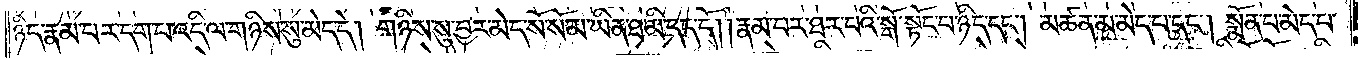ཉིད་རྣམ་པར་དག་པ་འདི་ལ་གཉིས་སུ་མེད་དེ། གཉིས་སུ་བྱར་མེད་སོ་སོ་མ་ཡིན་ཐ་མི་དད་དོ། །རྣམ་པར་ཐར་པའི་སྒོ་སྟོང་པ་ཉིད་དང༌། མཚན་མ་མེད་པ་དང༌། སྨོན་པ་མེད་པ་
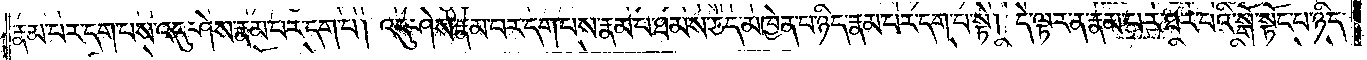རྣམ་པར་དག་པས་འདུ་ཤེས་རྣམ་པར་དག་པ། འདུ་ཤེས་རྣམ་པར་དག་པས་རྣམ་པ་ཐམས་ཅད་མཁྱེན་པ་ཉིད་རྣམ་པར་དག་པ་སྟེ། དེ་ལྟར་ན་རྣམ་པར་ཐར་པའི་སྒོ་སྟོང་པ་ཉིད་
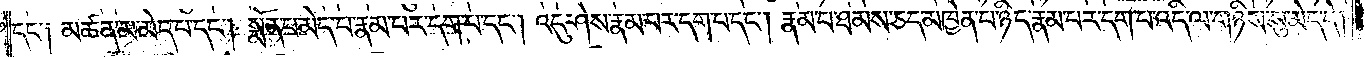དང་༑ མཚན་མ་མེད་པ་དང༌། སྨོན་པ་མེད་པ་རྣམ་པར་དག་པ་དང༌། འདུ་ཤེས་རྣམ་པར་དག་པ་དང༌། རྣམ་པ་ཐམས་ཅད་མཁྱེན་པ་ཉིད་རྣམ་པར་དག་པ་འདི་ལ་གཉིས་སུ་མེད་དེ།
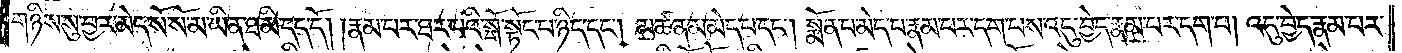གཉིས་སུ་བྱར་མེད་སོ་སོ་མ་ཡིན་ཐ་མི་དད་དོ། །རྣམ་པར་ཐར་པའི་སྒོ་སྟོང་པ་ཉིད་དང༌། མཚན་མ་མེད་པ་དང༌། སྨོན་པ་མེད་པ་རྣམ་པར་དག་པས་འདུ་བྱེད་རྣམ་པར་དག་པ། འདུ་བྱེད་རྣམ་པར་
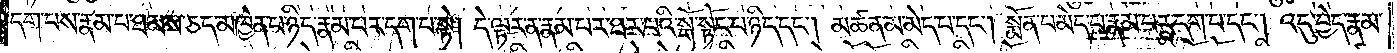དག་པས་རྣམ་པ་ཐམས་ཅད་མཁྱེན་པ་ཉིད་རྣམ་པར་དག་པ་སྟེ། དེ་ལྟར་ན་རྣམ་པར་ཐར་པའི་སྒོ་སྟོང་པ་ཉིད་དང༌། མཚན་མ་མེད་པ་དང༌། སྨོན་པ་མེད་པ་རྣམ་པར་དག་པ་དང༌། འདུ་བྱེད་རྣམ་
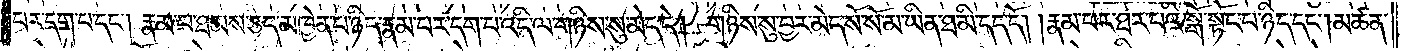པར་དག་པ་དང༌། རྣམ་པ་ཐམས་ཅད་མཁྱེན་པ་ཉིད་རྣམ་པར་དག་པ་འདི་ལ་གཉིས་སུ་མེད་དེ། གཉིས་སུ་བྱར་མེད་སོ་སོ་མ་ཡིན་ཐ་མི་དད་དོ། །རྣམ་པར་ཐར་པའི་སྒོ་སྟོང་པ་ཉིད་དང༌། མཚན་
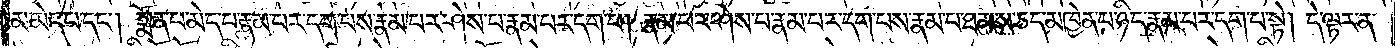མ་མེད་པ་དང༌། སྨོན་པ་མེད་པ་རྣམ་པར་དག་པས་རྣམ་པར་ཤེས་པ་རྣམ་པར་དག་པ། རྣམ་པར་ཤེས་པ་རྣམ་པར་དག་པས་རྣམ་པ་ཐམས་ཅད་མཁྱེན་པ་ཉིད་རྣམ་པར་དག་པ་སྟེ། དེ་ལྟར་ན་
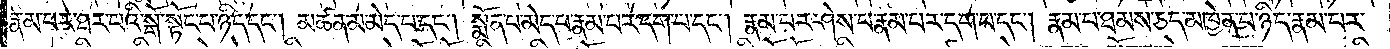རྣམ་པར་ཐར་པའི་སྒོ་སྟོང་པ་ཉིད་དང༌། མཚན་མ་མེད་པ་དང༌། སྨོན་པ་མེད་པ་རྣམ་པར་དག་པ་དང༌། རྣམ་པར་ཤེས་པ་རྣམ་པར་དག་པ་དང༌། རྣམ་པ་ཐམས་ཅད་མཁྱེན་པ་ཉིད་རྣམ་པར་
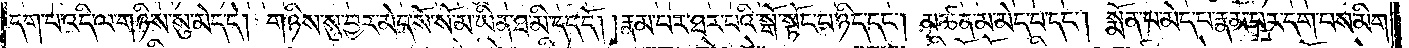དག་པ་འདི་ལ་གཉིས་སུ་མེད་དེ། གཉིས་སུ་བྱར་མེད་སོ་སོ་མ་ཡིན་ཐ་མི་དད་དོ། །རྣམ་པར་ཐར་པའི་སྒོ་སྟོང་པ་ཉིད་དང༌། མཚན་མ་མེད་པ་དང༌། སྨོན་པ་མེད་པ་རྣམ་པར་དག་པས་མིག་
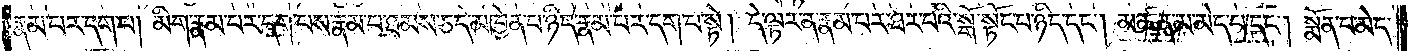རྣམ་པར་དག་པ། མིག་རྣམ་པར་དག་པས་རྣམ་པ་ཐམས་ཅད་མཁྱེན་པ་ཉིད་རྣམ་པར་དག་པ་སྟེ། དེ་ལྟར་ན་རྣམ་པར་ཐར་པའི་སྒོ་སྟོང་པ་ཉིད་དང༌། མཚན་མ་མེད་པ་དང༌། སྨོན་པ་མེད་
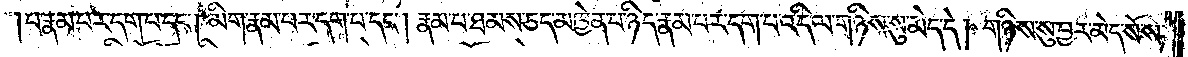པ་རྣམ་པར་དག་པ་དང༌། མིག་རྣམ་པར་དག་པ་དང༌། རྣམ་པ་ཐམས་ཅད་མཁྱེན་པ་ཉིད་རྣམ་པར་དག་པ་འདི་ལ་གཉིས་སུ་མེད་དེ། གཉིས་སུ་བྱར་མེད་སོ་སོ་
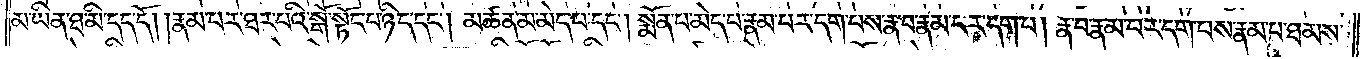མ་ཡིན་ཐ་མི་དད་དོ། །རྣམ་པར་ཐར་པའི་སྒོ་སྟོང་པ་ཉིད་དང༌། མཚན་མ་མེད་པ་དང༌། སྨོན་པ་མེད་པ་རྣམ་པར་དག་པས་རྣ་བ་རྣམ་པར་དག་པ། རྣ་བ་རྣམ་པར་དག་པས་རྣམ་པ་ཐམས་
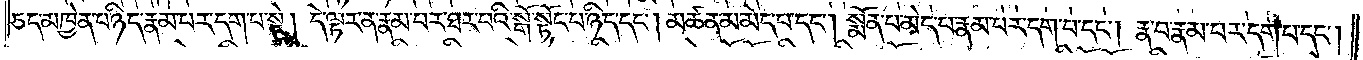ཅད་མཁྱེན་པ་ཉིད་རྣམ་པར་དག་པ་སྟེ། དེ་ལྟར་ན་རྣམ་པར་ཐར་པའི་སྒོ་སྟོང་པ་ཉིད་དང༌། མཚན་མ་མེད་པ་དང༌། སྨོན་པ་མེད་པ་རྣམ་པར་དག་པ་དང༌། རྣ་བ་རྣམ་པར་དག་པ་དང༌།
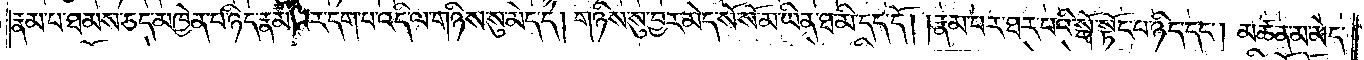རྣམ་པ་ཐམས་ཅད་མཁྱེན་པ་ཉིད་རྣམ་པར་དག་པ་འདི་ལ་གཉིས་སུ་མེད་དེ། གཉིས་སུ་བྱར་མེད་སོ་སོ་མ་ཡིན་ཐ་མི་དད་དོ། །རྣམ་པར་ཐར་བའི་སྒོ་སྟོང་པ་ཉིད་དང༌། མཚན་མ་མེད་
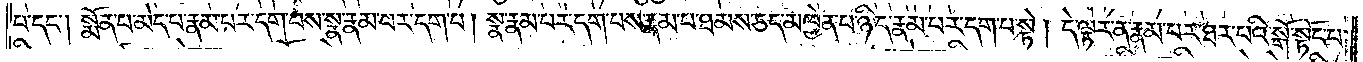པ་དང༌། སྨོན་པ་མེད་པ་རྣམ་པར་དག་པས་སྣ་རྣམ་པར་དག་པ། སྣ་རྣམ་པར་དག་པས་རྣམ་པ་ཐམས་ཅད་མཁྱེན་པ་ཉིད་རྣམ་པར་དག་པ་སྟེ། དེ་ལྟར་ན་རྣམ་པར་ཐར་པའི་སྒོ་སྟོང་པ་
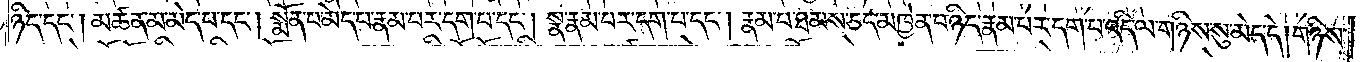ཉིད་དང༌། མཚན་མ་མེད་པ་དང༌། སྨོན་པ་མེད་པ་རྣམ་པར་དག་པ་དང༌། སྣ་རྣམ་པར་དག་པ་དང༌། རྣམ་པ་ཐམས་ཅད་མཁྱེན་པ་ཉིད་རྣམ་པར་དག་པ་འདི་ལ་གཉིས་སུ་མེད་དེ། གཉིས་
